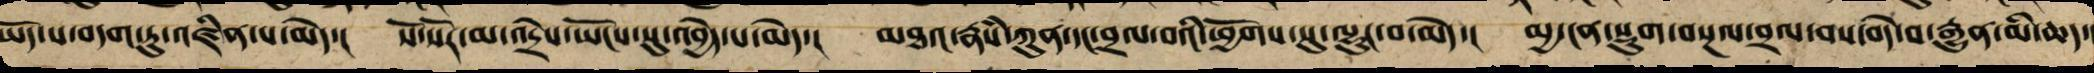ཡོད་པ་བདག་ཏུ་འཛིན་པ་མེད་། སོ་སོར་མ་འདྲེས་ཡོངས་སུ་འབྱེད་པ་མེད་། མཐའ་རྣཾས་ཀུན་དང་བྲལ་བས་ཕྱོགས་སུ་ལྷུང་བ་མེད་། མྱ་ངན་སྡུག་བསྔལ་བྲལ་བས་བདེ་བ་རྒྱུན་མི་ཆད་།
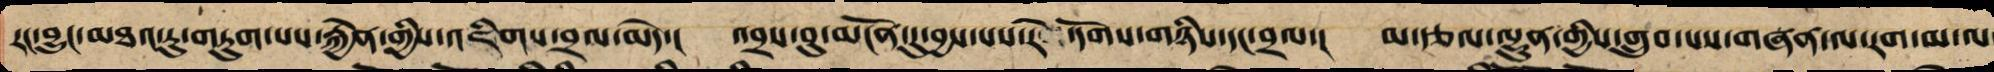རང་བྱུང་མཐའ་རུ་འདུག་པས་རྐྱེན་གྱིས་འཇིག་བྲལ་མེད་། འབྲས་བུ་མངོན་དུ་བྱས་པས་རེ་དོགས་གཉིས་དང་བྲལ་། མ་རྩལ་ལྷུན་གྱིས་གྲུབ་པས་གཞན་ལ་རག་མ་ལ
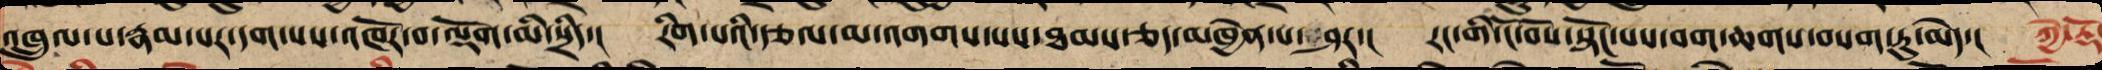འཁྲུལ་པ་རྣམ་པར་དག་པས་འཁོར་བར་ལྡོག་མི་སྲིད་། རིག་པའི་རྩལ་མ་འགགས་པས་ཐམས་ཅད་མཁྱེན་པར་ཤར་། རང་གི་ངོ་བོས་སྟོང་པས་བག་ཆགས་བསག་ཏུ་མེད་། ཀྱེ་རྡོ་
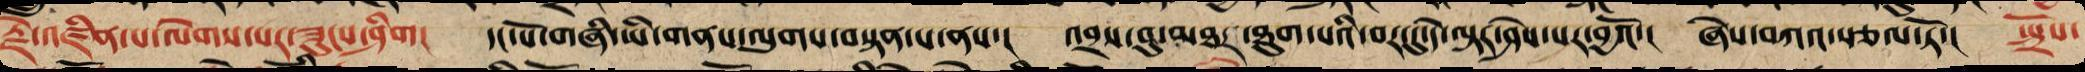རྗེ་འཛིན་པ་ལེགས་པར་ཟུང་ཤིག། དང་པོ་གཞི་ཡི་གནས་ལུགས་བསྟན་པ་ནས་། འབྲས་བུ་མཐར་ཐུག་པའི་བར་དུ་དེ་ལྟར་ཤེས་པར་བྱའོ་། ཞེས་བཀའ་སྩལ་ཏོ་། སྤྲོས་
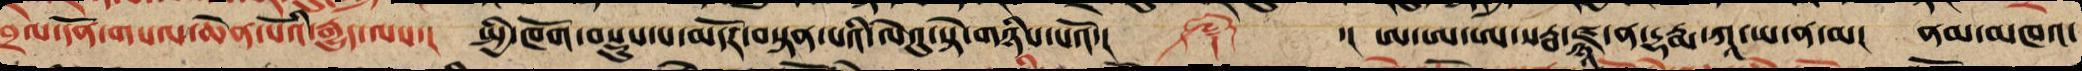བྲལ་དོན་གསལ་ཆེན་པོའི་རྒྱུད་ལས་། སྤྱི་ཁོག་བསྡུས་པ་མདོར་བསྟན་པའི་ལེའུ་སྟེ་གཉིས་པའོ་།། ༈ ་།། ཨ་ཨ་ཨ་སརྦ་ཛྙཱ་ན་དྷརྨ་ཀཱ་ཡ་ན་མ། ནམ་མཁའ་
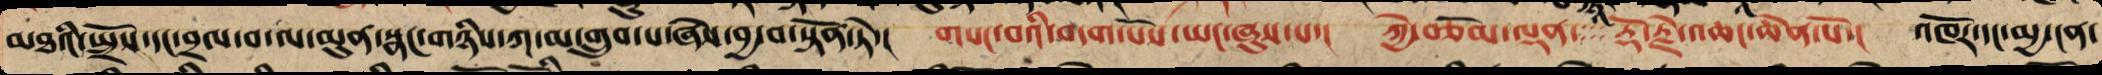མཐའི་སྤྲོས་དང་བྲལ་བ་ལ་མུན་སྣང་གཉིས་ཀ་མ་གྲུབ་པ་ཞེས་བྱ་བ་སྟོན་ཏེ་། གསང་བའི་བདག་པོས་ཡང་ཞུས་པ་། ཀྱེ་བཅོམ་ལྡན་རྡོ་རྗེ་འཆང་ཆེན་པོ་། འཁོར་དང་མྱ་ངན་
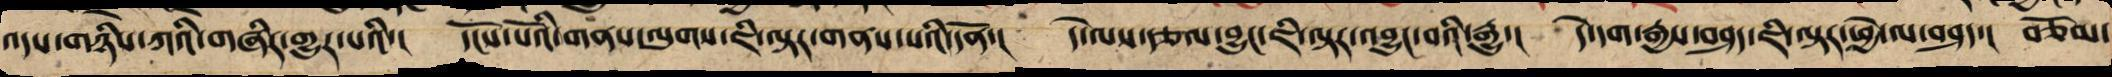འདས་གཉིས་ཀའི་གཞིར་གྱུར་པའི་། དངོས་པོའི་གནས་ལུགས་ཇི་ལྟར་གནས་པའི་དོན་། དེ་ལས་རྩལ་བྱུང་ཇི་ལྟར་འབྱུང་བའི་རྒྱུ་། དེ་དག་རྒྱས་བཤད་ཇི་ལྟར་ཕྱེ་ལ་བཤད་། བཅོམ་
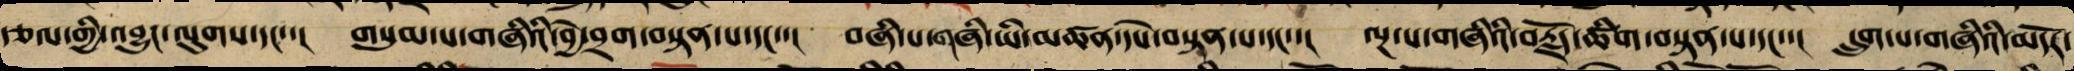རྩལ་གྱི་འབྱུང་ལུགས་དང་་། གསུམ་པ་གཞི་ཡི་བྱེ་བྲག་བསྟན་པ་དང་་། བཞི་པ་གཞི་ཡི་མཚོན་དཔེ་བསྟན་པ་དང་་། ལྔ་པ་གཞིའི་བརྗོད་ཚིག་བསྟན་པ་དང་་། དྲུག་པ་གཞི་ཡི་མདོར་
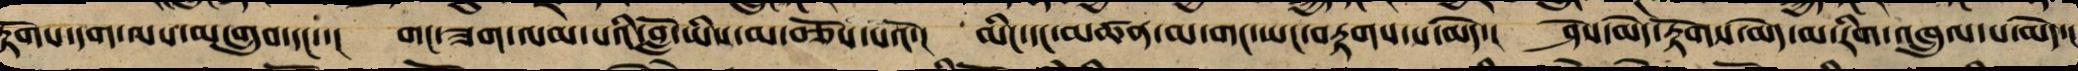རྟོགས་དག་ལས་མ་གྲུབ་དང་་། གང་ཟག་ལམ་པའི་བློ་ཡིས་མ་བཅོས་པའོ་། མིང་དང་མཚན་མ་གང་ཡང་བརྟགས་པ་མེད་། ཤེས་མེད་རྟོགས་མེད་མ་རིག་འཁྲུལ་པ་མེད་།
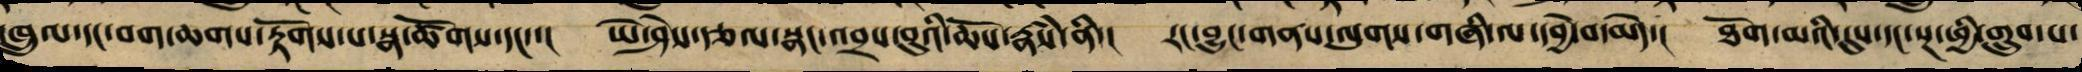འཁྲུལ་དང་བག་ཆགས་རྟོག་པ་སྣ་ཚོགས་དང་་། ཡེ་ཤེས་རྩལ་སྣང་འབྲས་བུའི་ཆོས་རྣཾས་ནི་། རང་བྱུང་གནས་ལུགས་གཞི་ལ་དབྱེ་བ་མེད་། ཐོག་མའི་དུས་དང་སྔ་ཕྱི་གྲུབ་པ་
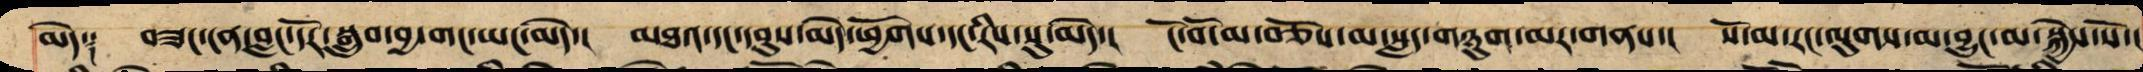མེད༑ བཟང་ངན་བླང་དོར་སྒྲུབ་བྱ་གང་ཡང་མེད་། མཐའ་དང་དབུས་མེད་ཕྱོགས་དང་རིས་སུ་མེད་། ངོ་བོ་མ་བཅོས་མ་བསླད་གཉུག་མར་གནས་། སོ་མ་རང་ལུགས་མ་བྱུང་མ་སྐྱེས་སོ་།
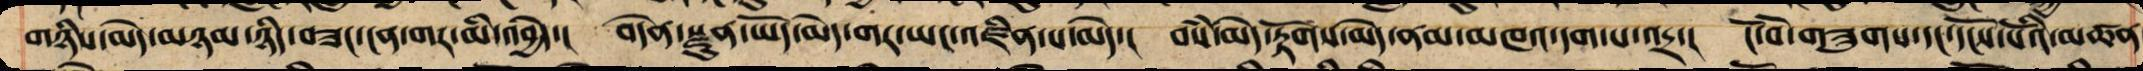གཉིས་མེད་མཉམ་ཉིད་བཟང་ངན་གར་མི་འབྱེད་། བདེན་སྫུན་ཡོད་མེད་གར་ཡང་འཛིན་པ་མེད་། བསཾ་མེད་རྟོགས་མེད་ནམ་མཁའ་དག་པ་འདྲ་། ངོ་བོ་གཟུགས་དང་དངོས་པོའི་མཚན
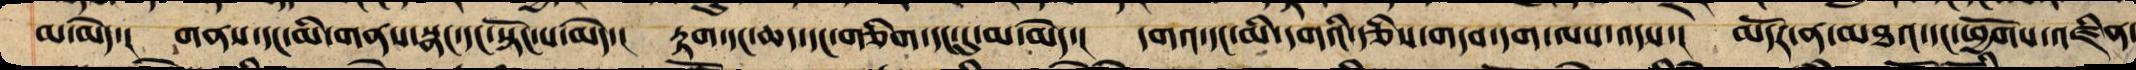མ་མེད་། གནས་དང་མི་གནས་སྣང་དང་སྟོང་པ་མེད་། རྟག་དང་ཆད་དང་གཅིག་དང་དུ་མ་མེད་། དགའ་དང་མི་དགའི་རྩིས་གདབ་དག་ལས་འདས་། མདོར་ན་མཐའ་དང་ཕྱོགས་འཛིན་
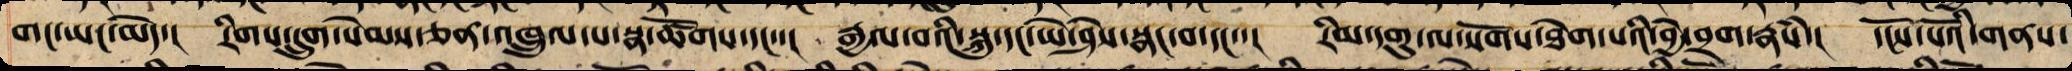གང་ཡང་མེད་། རིགས་དྲུག་སེམས་ཅནའཁྲུལ་པ་སྣ་ཚོགས་དང་་། རྒྱལ་བའི་སྐུ་དང་ཡེ་ཤེས་སྣང་བ་དང་་། རིམ་དགུ་ལ་སོགས་ཐེག་པའི་བྱེ་བྲག་རྣཾས་། དངོས་པོའི་གནས་
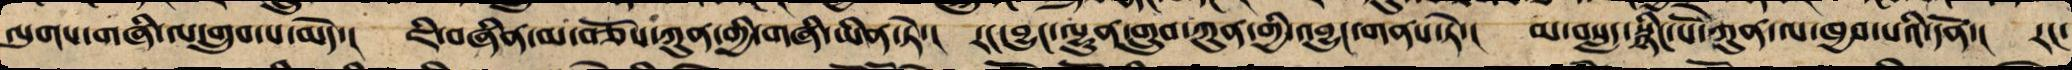ལུགས་གཞི་ལ་གྲུབ་པ་མེད་། ཇི་བཞིན་མ་བཅོས་ཀུན་གྱི་གཞི་ཡིན་ཏེ་། རང་བྱུང་ལྷུན་གྲུབ་ཀུན་གྱི་འབྱུང་གནས་དེ་། མ་བསླད་སྙིང་པོ་ཀུན་ལ་ཁྱབ་པའི་དོན་། རང་
